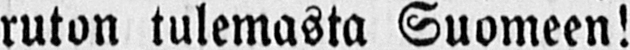ruton tulemasta Suomeen!
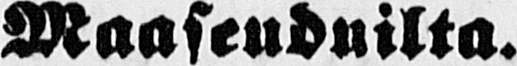Maaseuduilta.
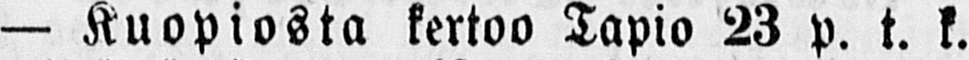— Kuopiosta kertoo Tapio 23 p. t. k.
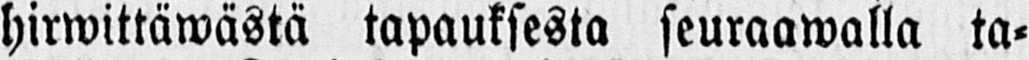hirwittäwästä tapauksesta seuraawalla ta-
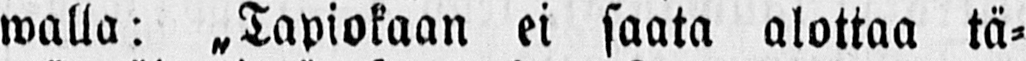walla: „Tapiokaan ei saata alottaa tä-
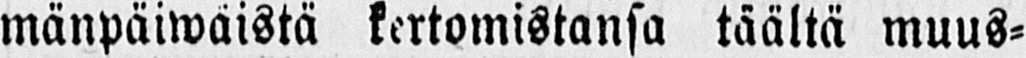mänpäiwäistä kertomistansa täältä muus-
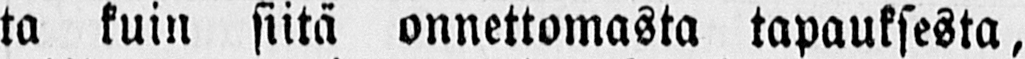ta kuin siitä onnettomasta tapauksesta,
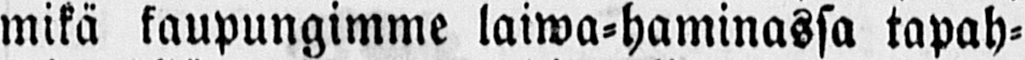mikä kaupungimme laiwa-haminassa tapah-
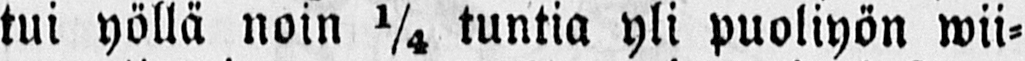tui yöllä noin ¼ tuntia yli puoliyön wii-
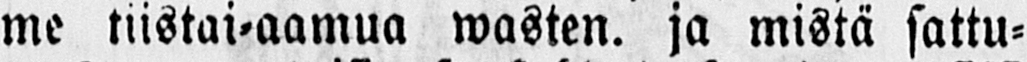me tiistai-aamua wasten. ja mistä sattu-
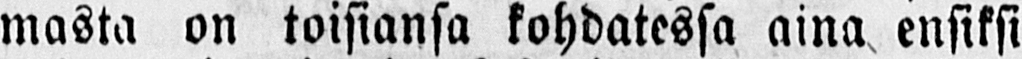masta on toisiansa kohdatessa aina ensiksi
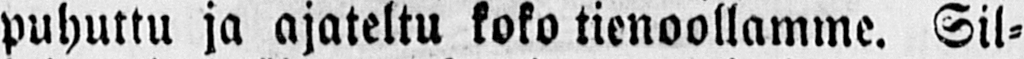puhuttu ja ajateltu koko tienoollamme. Sil-
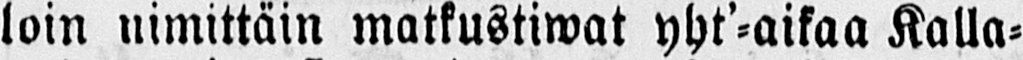loin nimittäin matkustiwat yht'-aikaa Kalla-
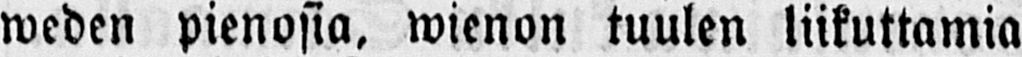weden pienosia, wienon tuulen liikuttamia
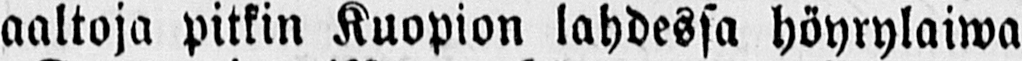aaltoja pitkin Kuopion lahdessa höyrylaiwa
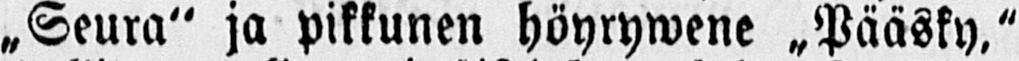„Seura" ja pikkunen höyrywene „Pääsky,"
